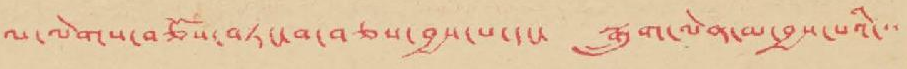ལ་ལེགས་བཅོས་བཏང་བ་བཅས་བྱས་པ་དང་ སྒྲུག་ལེན་མ་བྱས་པའི་་་
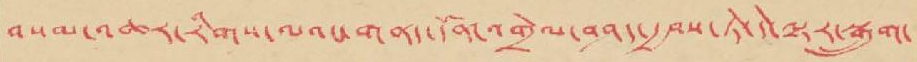བསམ་འཆར་རིགས་ལའང་གནད་དོན་འགྲེལ་བཤད་རྒྱབས་ཏེ་དེ་ལྟར་སྒྲུག་
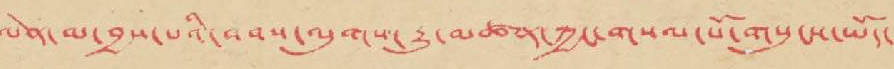ལེན་མ་བྱས་པའི་བབས་ལུགས་རྒྱུ་མཚན་ཀྱང་གསལ་པོ་གསུངས་ཡོད་
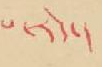པ་རེད་།
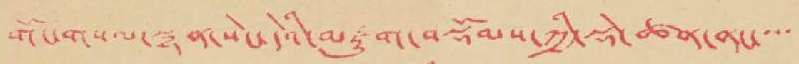གོང་གསལ་སྙན་སེང་དེའི་མཇུག་བསྡོམས་ཀྱི་ལྡེ་ཚན་ནང་་་་
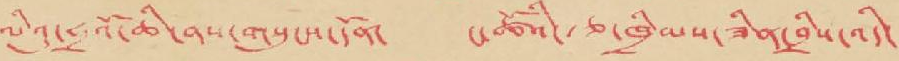ལིའུ་ཧྲའོ་ཆི་ནས་གསུངས་དོན་ ང་ཚོའི་ཙ་ཁྲིམས་ཟིན་བྲིས་འདི་
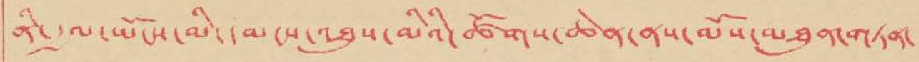ནི་རྒྱལ་ཡོངས་མི་དམངས་འཐུས་མིའི་ཚོགས་ཆེན་ནས་མོས་མཐུན་གཏན་
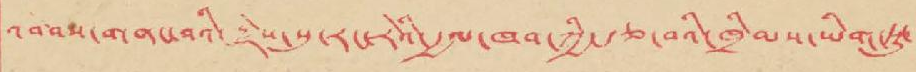འབབས་གནང་བའི་རྗེས་སུ་རང་རེའི་རྒྱལ་ཁབ་ཀྱི་རྩ་བའི་ཁྲིམས་ཡིག་ཏུ་
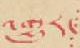འགྱུར་
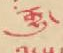རྒྱུ་
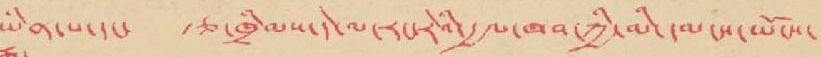ཡིན་པ་དང་ རྩ་ཁྲིམས་དེ་ལ་རང་རེའི་རྒྱལ་ཁབ་ཀྱི་མི་དམངས་ཡོངས་
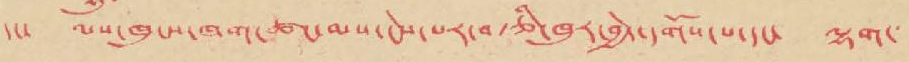དང་ ལས་ཁུངས་ཁག་ཚང་མས་ངེས་པར་བརྩི་ཁུར་བྱེད་དགོས་པ་དང་ ལྷག་
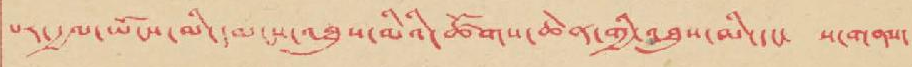པར་རྒྱལ་ཡོངས་མི་དམངས་འཐུས་མིའི་ཚོགས་ཆེན་གྱི་འཐུས་མི་དང་ ས་གནས་
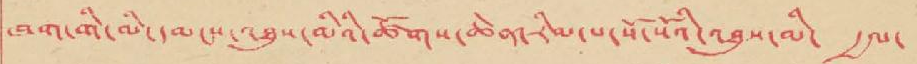ཁག་གི་མི་དམངས་འཐུས་མིའི་ཚོགས་ཆེན་རིམ་པ་སོ་སོའི་འཐུས་མི་ རྒྱལ་
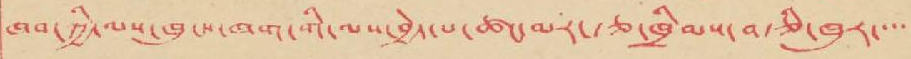ཁབ་ཀྱི་ལས་ཁུངས་ཁག་གི་ལས་བྱེད་པ་ཚང་མར་རྩ་ཁྲིམས་བརྩི་ཁུར་་་་
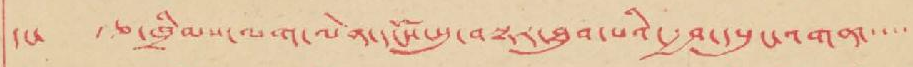དང་ རྩ་ཁྲིམས་ལག་ལེན་དངོས་སུ་བསྟར་ཐུབ་པའི་རྒྱབ་དཔུང་འགན་་་་་
